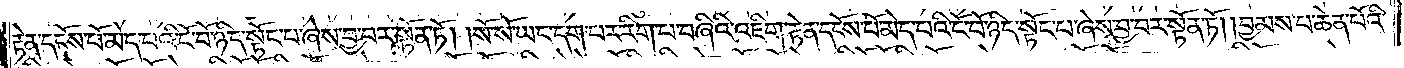རྟེན་དངོས་པོ་མེད་པའི་ངོ་བོ་ཉིད་སྟོང་པ་ཞེས་བྱ་བར་སྟོན་ཏོ། །སོ་སོ་ཡང་དག་པར་རིག་པ་བཞིའི་འཇིག་རྟེན་དངོས་པོ་མེད་པའི་ངོ་བོ་ཉིད་སྟོང་པ་ཞེས་བྱ་བར་སྟོན་ཏོ། །བྱམས་པ་ཆེན་པོའི་
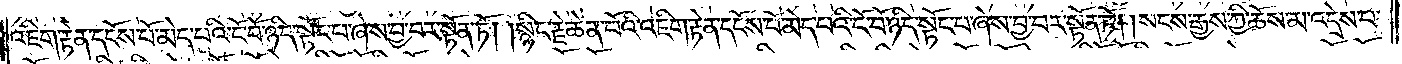འཇིག་རྟེན་དངོས་པོ་མེད་པའི་ངོ་བོ་ཉིད་སྟོང་པ་ཞེས་བྱ་བར་སྟོན་ཏོ། །སྙིང་རྗེ་ཆེན་པོའི་འཇིག་རྟེན་དངོས་པོ་མེད་པའི་ངོ་བོ་ཉིད་སྟོང་པ་ཞེས་བྱ་བར་སྟོན་ཏོ། །སངས་རྒྱས་ཀྱི་ཆོས་མ་འདྲེས་པ་
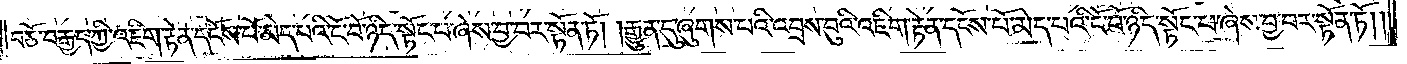བཅོ་བརྒྱད་ཀྱི་འཇིག་རྟེན་དངོས་པོ་མེད་པའི་ངོ་བོ་ཉིད་སྟོང་པ་ཞེས་བྱ་བར་སྟོན་ཏོ། །རྒྱུན་དུ་ཞུགས་པའི་འབྲས་བུའི་འཇིག་རྟེན་དངོས་པོ་མེད་པའི་ངོ་བོ་ཉིད་སྟོང་པ་ཞེས་བྱ་བར་སྟོན་ཏོ། །
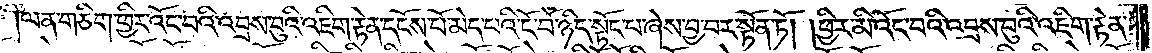ལན་གཅིག་ཕྱིར་འོང་བའི་འབྲས་བུའི་འཇིག་རྟེན་དངོས་པོ་མེད་པའི་ངོ་བོ་ཉིད་སྟོང་པ་ཞེས་བྱ་བར་སྟོན་ཏོ། །ཕྱིར་མི་འོང་བའི་འབྲས་བུའི་འཇིག་རྟེན་
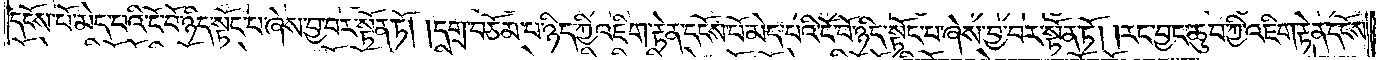དངོས་པོ་མེད་པའི་ངོ་བོ་ཉིད་སྟོང་པ་ཞེས་བྱ་བར་སྟོན་ཏོ། །དགྲ་བཅོམ་པ་ཉིད་ཀྱི་འཇིག་རྟེན་དངོས་པོ་མེད་པའི་ངོ་བོ་ཉིད་སྟོང་པ་ཞེས་བྱ་བར་སྟོན་ཏོ། །རང་བྱང་ཆུབ་ཀྱི་འཇིག་རྟེན་དངོས་
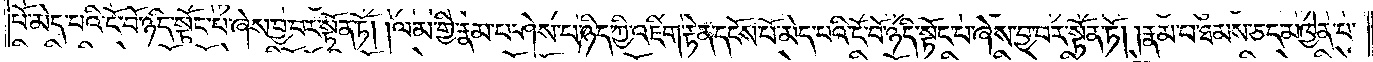པོ་མེད་པའི་ངོ་བོ་ཉིད་སྟོང་པ་ཞེས་བྱ་བར་སྟོན་ཏོ། །ལམ་གྱི་རྣམ་པ་ཤེས་པ་ཉིད་ཀྱི་འཇིག་རྟེན་དངོས་པོ་མེད་པའི་ངོ་བོ་ཉིད་སྟོང་པ་ཞེས་བྱ་བར་སྟོན་ཏོ། །རྣམ་པ་ཐམས་ཅད་མཁྱེན་པ་
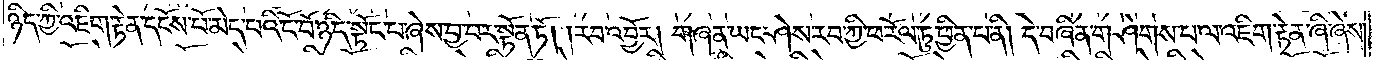ཉིད་ཀྱི་འཇིག་རྟེན་དངོས་པོ་མེད་པའི་ངོ་བོ་ཉིད་སྟོང་པ་ཞེས་བྱ་བར་སྟོན་ཏོ། །རབ་འབྱོར། གཞན་ཡང་ཤེས་རབ་ཀྱི་ཕ་རོལ་ཏུ་ཕྱིན་པ་ནི། དེ་བཞིན་གཤེགས་པ་ལ་འཇིག་རྟེན་ཞི་ཞེས་
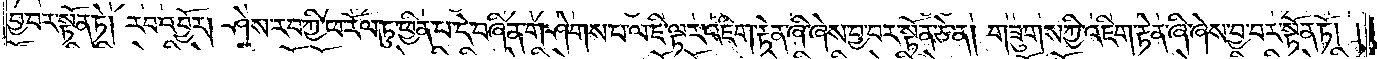བྱ་བར་སྟོན་ཏེ། རབ་འབྱོར། ཤེས་རབ་ཀྱི་ཕ་རོལ་ཏུ་ཕྱིན་པ་དེ་བཞིན་གཤེགས་པ་ལ་ཇི་ལྟར་འཇིག་རྟེན་ཞི་ཞེས་བྱ་བར་སྟོན་ཅེ་ན། གཟུགས་ཀྱི་འཇིག་རྟེན་ཞི་ཞེས་བྱ་བར་སྟོན་ཏོ། །
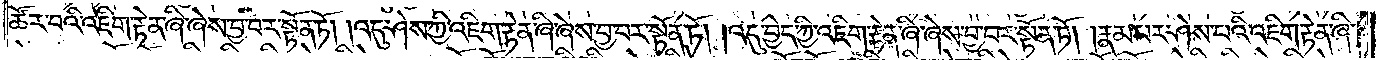ཚོར་བའི་འཇིག་རྟེན་ཞི་ཞེས་བྱ་བར་སྟོན་ཏོ། །འདུ་ཤེས་ཀྱི་འཇིག་རྟེན་ཞི་ཞེས་བྱ་བར་སྟོན་ཏོ། །འདུ་བྱེད་ཀྱི་འཇིག་རྟེན་ཞི་ཞེས་བྱ་བར་སྟོན་ཏོ། །རྣམ་པར་ཤེས་པའི་འཇིག་རྟེན་ཞི་
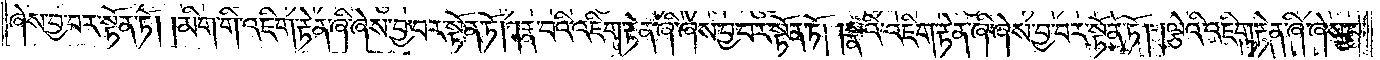ཞེས་བྱ་བར་སྟོན་ཏོ། །མིག་གི་འཇིག་རྟེན་ཞི་ཞེས་བྱ་བར་སྟོན་ཏོ། །རྣ་བའི་འཇིག་རྟེན་ཞི་ཞེས་བྱ་བར་སྟོན་ཏོ། །སྣའི་འཇིག་རྟེན་ཞི་ཞེས་བྱ་བར་སྟོན་ཏོ། །ལྕེའི་འཇིག་རྟེན་ཞི་ཞེས་བྱ་
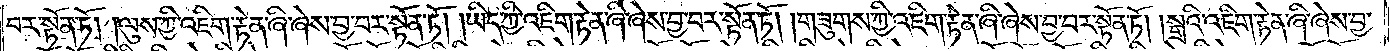བར་སྟོན་ཏོ། །ལུས་ཀྱི་འཇིག་རྟེན་ཞི་ཞེས་བྱ་བར་སྟོན་ཏོ། །ཡིད་ཀྱི་འཇིག་རྟེན་ཞི་ཞེས་བྱ་བར་སྟོན་ཏོ། །གཟུགས་ཀྱི་འཇིག་རྟེན་ཞི་ཞེས་བྱ་བར་སྟོན་ཏོ། །སྒྲའི་འཇིག་རྟེན་ཞི་ཞེས་བྱ་
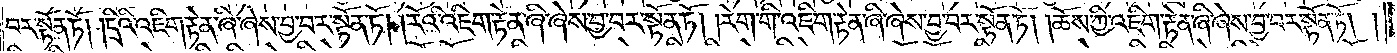བར་སྟོན་ཏོ། །དྲིའི་འཇིག་རྟེན་ཞི་ཞེས་བྱ་བར་སྟོན་ཏོ། །རོའི་འཇིག་རྟེན་ཞི་ཞེས་བྱ་བར་སྟོན་ཏོ། །རེག་གི་འཇིག་རྟེན་ཞི་ཞེས་བྱ་བར་སྟོན་ཏོ། །ཆོས་ཀྱི་འཇིག་རྟེན་ཞི་ཞེས་བྱ་བར་སྟོན་ཏོ། །
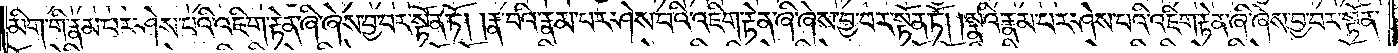མིག་གི་རྣམ་པར་ཤེས་པའི་འཇིག་རྟེན་ཞི་ཞེས་བྱ་བར་སྟོན་ཏོ། །རྣ་བའི་རྣམ་པར་ཤེས་པའི་འཇིག་རྟེན་ཞི་ཞེས་བྱ་བར་སྟོན་ཏོ། །སྣའི་རྣམ་པར་ཤེས་པའི་འཇིག་རྟེན་ཞི་ཞེས་བྱ་བར་སྟོན་
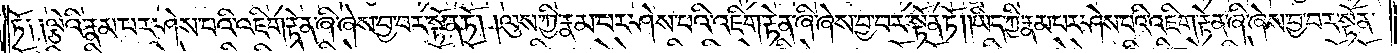ཏོ༑ ༑ལྕེའི་རྣམ་པར་ཤེས་པའི་འཇིག་རྟེན་ཞི་ཞེས་བྱ་བར་སྟོན་ཏོ། །ལུས་ཀྱི་རྣམ་པར་ཤེས་པའི་འཇིག་རྟེན་ཞི་ཞེས་བྱ་བར་སྟོན་ཏོ། །ཡིད་ཀྱི་རྣམ་པར་ཤེས་པའི་འཇིག་རྟེན་ཞི་ཞེས་བྱ་བར་སྟོན་
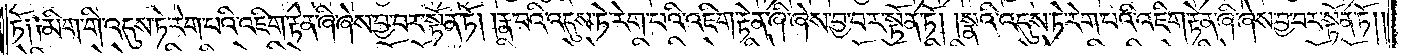ཏོ༑ ༑མིག་གི་འདུས་ཏེ་རེག་པའི་འཇིག་རྟེན་ཞི་ཞེས་བྱ་བར་སྟོན་ཏོ། །རྣ་བའི་འདུས་ཏེ་རེག་པའི་འཇིག་རྟེན་ཞི་ཞེས་བྱ་བར་སྟོན་ཏོ། །སྣའི་འདུས་ཏེ་རེག་པའི་འཇིག་རྟེན་ཞི་ཞེས་བྱ་བར་སྟོན་ཏོ། །
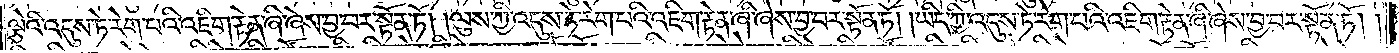ལྕེའི་འདུས་ཏེ་རེག་པའི་འཇིག་རྟེན་ཞི་ཞེས་བྱ་བར་སྟོན་ཏོ། །ལུས་ཀྱི་འདུས་ཏེ་རེག་པའི་འཇིག་རྟེན་ཞི་ཞེས་བྱ་བར་སྟོན་ཏོ། །ཡིད་ཀྱི་འདུས་ཏེ་རེག་པའི་འཇིག་རྟེན་ཞི་ཞེས་བྱ་བར་སྟོན་ཏོ། །
